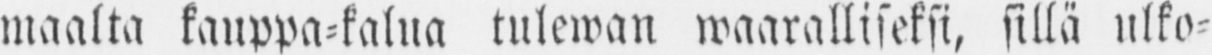maalta kauppa-kalua tulewan waaralliseksi, sillä ulko-
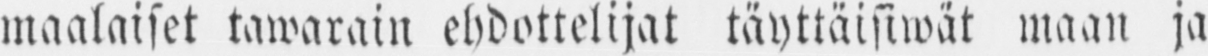maalaiset tawarain ehdottelijat täyttäisiwat maan ja
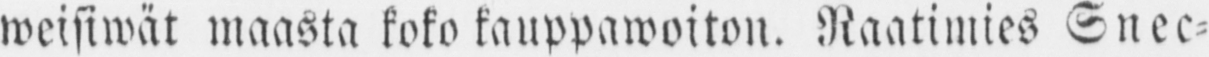weisiwät maasta koko kauppawoiton. Raatimies Snec-
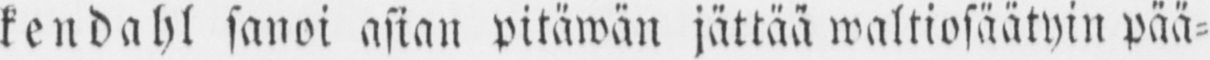kendahl sanoi asian pitäwän jättää waltiosäätyin pää-
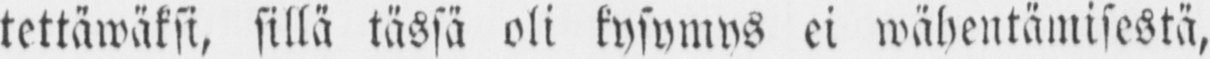tettäwäksi, sillä tässä oli kysymys ei wähentämisestä,
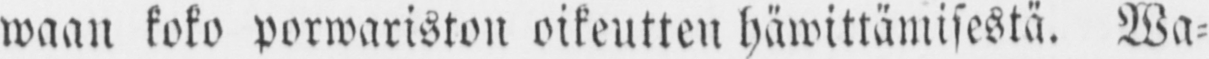waan koko porwariston oikeutten häwittämisestä. Wa-
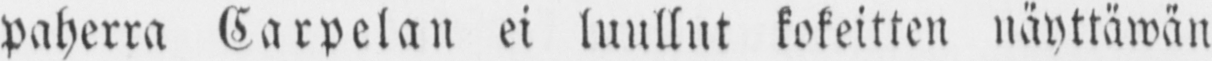paherra Carpelan ei luullut kokeitten näyttäwän
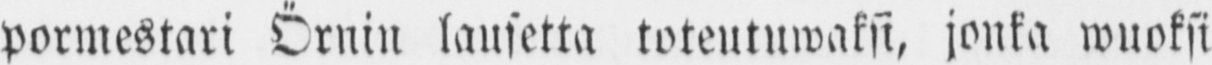pormestari Örnin lausetta toteutuwaksi, jonka wuoksi
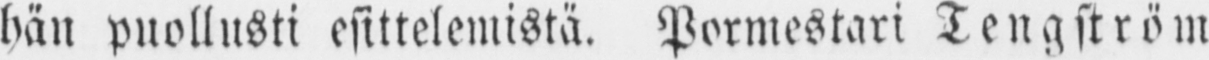hän puollusti esittelemistä. Pormestari Tengström
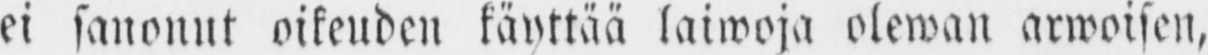ei sanonut oikeuden käyttää laiwoja olewan arwoisen,
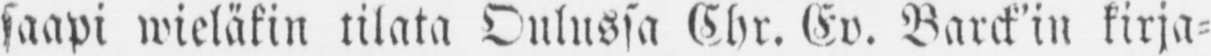saapi wieläkin tilata Oulussa Chr. Ev. Barck'in kirja-
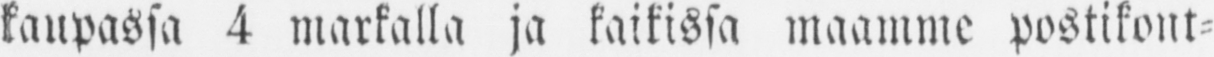kaupassa 4 markalla ja kaikissa maamme postikont-
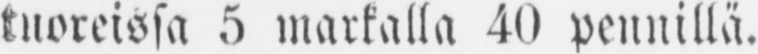kuoreissa 5 markalla 40 pennillä.
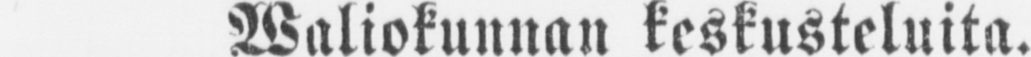Waliokunnan keskusteluita.
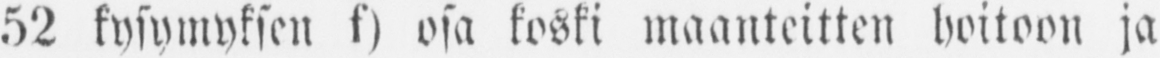52 kysymyksen f) osa koski maanteitten hoitoon ja
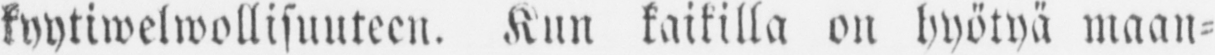kyytiwelwollisuuteen. Kun kaikilla on hyötyä maan-
